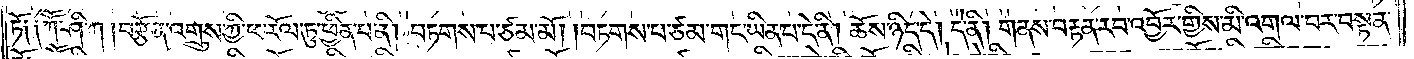ཏོ༑ ༑ཀཽ་ཤི་ཀ །བརྩོན་འགྲུས་ཀྱི་ཕ་རོལ་ཏུ་ཕྱིན་པ་ནི། བཏགས་པ་ཙམ་མོ། །བཏགས་པ་ཙམ་གང་ཡིན་པ་དེ་ནི། ཆོས་ཉིད་དེ། དེ་ནི། གནས་བརྟན་རབ་འབྱོར་གྱིས་མི་འགལ་བར་བསྟན་
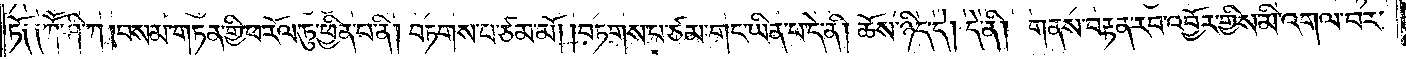ཏོ༑ ༑ཀཽ་ཤི་ཀ །བསམ་གཏན་གྱི་ཕ་རོལ་ཏུ་ཕྱིན་པ་ནི། བཏགས་པ་ཙམ་མོ། །བཏགས་པ་ཙམ་གང་ཡིན་པ་དེ་ནི། ཆོས་ཉིད་དེ། དེ་ནི། གནས་བརྟན་རབ་འབྱོར་གྱིས་མི་འགལ་བར་
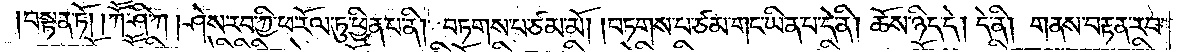བསྟན་ཏོ། །ཀཽ་ཤི་ཀ །ཤེས་རབ་ཀྱི་ཕ་རོལ་ཏུ་ཕྱིན་པ་ནི། བཏགས་པ་ཙམ་མོ། །བཏགས་པ་ཙམ་གང་ཡིན་པ་དེ་ནི། ཆོས་ཉིད་དེ། དེ་ནི། གནས་བརྟན་རབ་
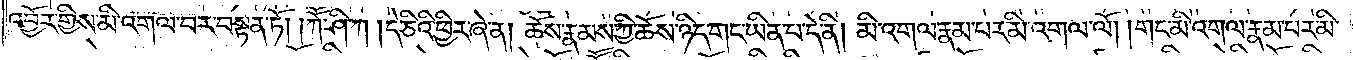འབྱོར་གྱིས་མི་འགལ་བར་བསྟན་ཏོ། །ཀཽ་ཤི་ཀ །དེ་ཅིའི་ཕྱིར་ཞེ་ན། ཆོས་རྣམས་ཀྱི་ཆོས་ཉིད་གང་ཡིན་པ་དེ་ནི། མི་འགལ་རྣམ་པར་མི་འགལ་ལོ། །གང་མི་འགལ་རྣམ་པར་མི་
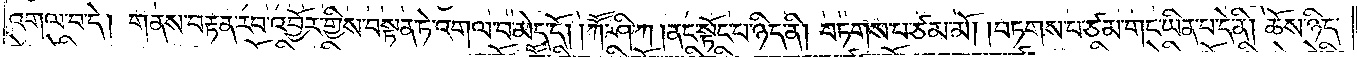འགལ་བ་དེ། གནས་བརྟན་རབ་འབྱོར་གྱིས་བསྟན་ཏེ་འགལ་བ་མེད་དོ། །ཀཽ་ཤི་ཀ །ནང་སྟོང་པ་ཉིད་ནི། བཏགས་པ་ཙམ་མོ། །བཏགས་པ་ཙམ་གང་ཡིན་པ་དེ་ནི། ཆོས་ཉིད་
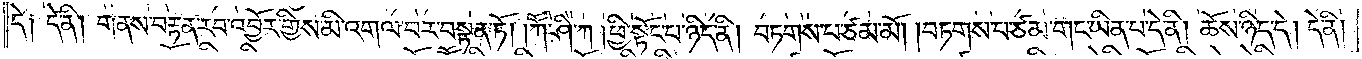དེ༑ དེ་ནི། གནས་བརྟན་རབ་འབྱོར་གྱིས་མི་འགལ་བར་བསྟན་ཏོ། །ཀོ་ཤི་ཀ །ཕྱི་སྟོང་པ་ཉིད་ནི། བཏགས་པ་ཙམ་མོ། །བཏགས་པ་ཙམ་གང་ཡིན་པ་དེ་ནི། ཆོས་ཉིད་དེ། དེ་ནི།
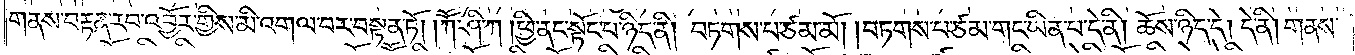གནས་བརྟན་རབ་འབྱོར་གྱིས་མི་འགལ་བར་བསྟན་ཏོ། །ཀཽ་ཤི་ཀ །ཕྱི་ནང་སྟོང་པ་ཉིད་ནི། བཏགས་པ་ཙམ་མོ། །བཏགས་པ་ཙམ་གང་ཡིན་པ་དེ་ནི། ཆོས་ཉིད་དེ། དེ་ནི། གནས་
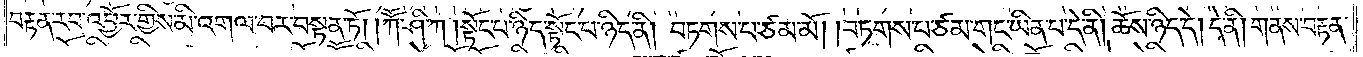བརྟན་རབ་འབྱོར་གྱིས་མི་འགལ་བར་བསྟན་ཏོ། །ཀཽ་ཤི་ཀ །སྟོང་པ་ཉིད་སྟོང་པ་ཉིད་ནི། བཏགས་པ་ཙམ་མོ། །བཏགས་པ་ཙམ་གང་ཡིན་པ་དེ་ནི། ཆོས་ཉིད་དེ། དེ་ནི། གནས་བརྟན་
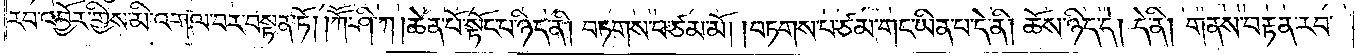རབ་འབྱོར་གྱིས་མི་འགལ་བར་བསྟན་ཏོ། །ཀཽ་ཤི་ཀ །ཆེན་པོ་སྟོང་པ་ཉིད་ནི། བཏགས་པ་ཙམ་མོ། །བཏགས་པ་ཙམ་གང་ཡིན་པ་དེ་ནི། ཆོས་ཉིད་དེ། །དེ་ནི། གནས་བརྟན་རབ་
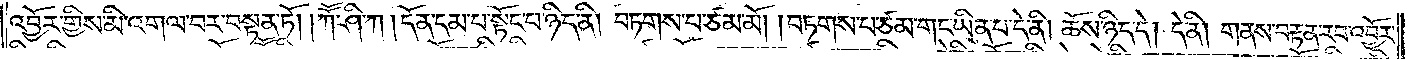འབྱོར་གྱིས་མི་འགལ་བར་བསྟན་ཏོ། །ཀཽ་ཤི་ཀ །དོན་དམ་པ་སྟོང་པ་ཉིད་ནི། བཏགས་པ་ཙམ་མོ། །བཏགས་པ་ཙམ་གང་ཡིན་པ་དེ་ནི། ཆོས་ཉིད་དེ། དེ་ནི། གནས་བརྟན་རབ་འབྱོར་
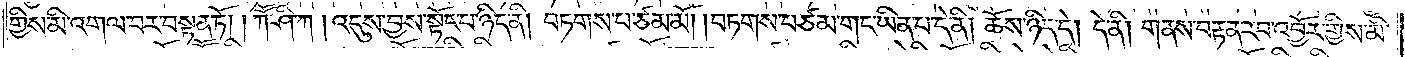གྱིས་མི་འགལ་བར་བསྟན་ཏོ། །ཀཽ་ཤི་ཀ །འདུས་བྱས་སྟོང་པ་ཉིད་ནི། བཏགས་པ་ཙམ་མོ། །བཏགས་པ་ཙམ་གང་ཡིན་པ་དེ་ནི། ཆོས་ཉིད་དེ། དེ་ནི། གནས་བརྟན་རབ་འབྱོར་གྱིས་མི་
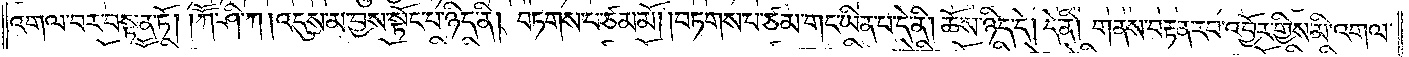འགལ་བར་བསྟན་ཏོ། །ཀཽ་ཤི་ཀ །འདུས་མ་བྱས་སྟོང་པ་ཉིད་ནི། བཏགས་པ་ཙམ་མོ། །བཏགས་པ་ཙམ་གང་ཡིན་པ་དེ་ནི། ཆོས་ཉིད་དེ། དེ་ནི། གནས་བརྟན་རབ་འབྱོར་གྱིས་མི་འགལ་
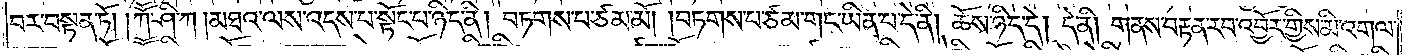བར་བསྟན་ཏོ། །ཀཽ་ཤི་ཀ །མཐའ་ལས་འདས་པ་སྟོང་པ་ཉིད་ནི། བཏགས་པ་ཙམ་མོ། །བཏགས་པ་ཙམ་གང་ཡིན་པ་དེ་ནི། ཆོས་ཉིད་དེ། དེ་ནི། གནས་བརྟན་རབ་འབྱོར་གྱིས་མི་འགལ་
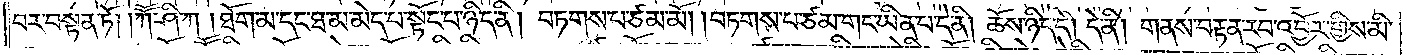བར་བསྟན་ཏོ། །ཀཽ་ཤི་ཀ །ཐོག་མ་དང་ཐ་མ་མེད་པ་སྟོང་པ་ཉིད་ནི། བཏགས་པ་ཙམ་མོ། །བཏགས་པ་ཙམ་གང་ཡིན་པ་དེ་ནི། ཆོས་ཉིད་དེ། དེ་ནི། གནས་བརྟན་རབ་འབྱོར་གྱིས་མི་
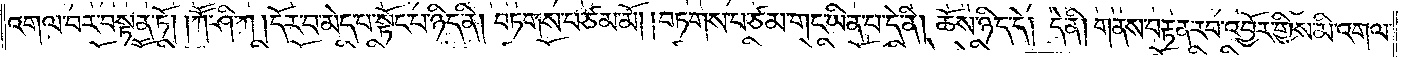འགལ་བར་བསྟན་ཏོ། །ཀཽ་ཤི་ཀ །དོར་བ་མེད་པ་སྟོང་པ་ཉིད་ནི། བཏགས་པ་ཙམ་མོ། །བཏགས་པ་ཙམ་གང་ཡིན་པ་དེ་ནི། ཆོས་ཉིད་དེ། དེ་ནི། གནས་བརྟན་རབ་འབྱོར་གྱིས་མི་འགལ་
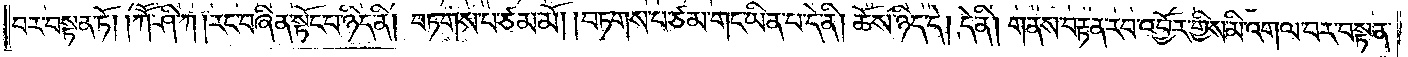བར་བསྟན་ཏོ། །ཀཽ་ཤི་ཀ །རང་བཞིན་སྟོང་པ་ཉིད་ནི། བཏགས་པ་ཙམ་མོ། །བཏགས་པ་ཙམ་གང་ཡིན་པ་དེ་ནི། ཆོས་ཉིད་དེ། དེ་ནི། གནས་བརྟན་རབ་འབྱོར་གྱིས་མི་འགལ་བར་བསྟན་
